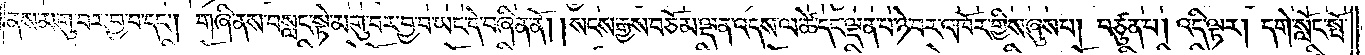ནས་མགུ་བར་བྱ་བ་དང༌། གཞི་ནས་བསླང་སྟེ་མགུ་བར་བྱ་བ་ཡང་དེ་བཞིན་ནོ། །སངས་རྒྱས་བཅོམ་ལྡན་འདས་ལ་ཚེ་དང་ལྡན་པ་ཉེ་བར་འཁོར་གྱིས་ཞུས་པ། བཙུན་པ། འདི་ལྟར། དགེ་སློང་སྤོ་
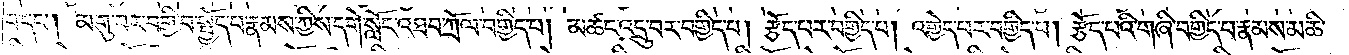བ་དང༌། མགུ་བར་བགྱི་བ་སྤྱོད་པ་རྣམས་ཀྱིས་དགེ་སློང་འཐབ་ཀྲོལ་བགྱིད་པ། མཚང་འདྲུ་བར་བགྱིད་པ། རྩོད་པར་བགྱིད་པ། འགྱེད་པར་བགྱིད་པ། རྩོད་པའི་གཞི་བགྱིད་པ་རྣམས་མཆི་
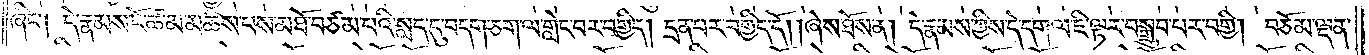ཞིང༌། དེ་རྣམས་ངོ་ཚ་མ་མཆིས་པས་མཐོ་བཙམ་པའི་སླད་དུ་བདག་ཅག་ལ་གླེང་བར་བགྱིད། དྲན་པར་བགྱིད་དོ། །ཞེས་ཐོས་ན། དེ་རྣམས་ཀྱིས་དེ་དག་ལ་ཇི་ལྟར་བསྒྲུབ་པར་བགྱི། བཅོམ་ལྡན་
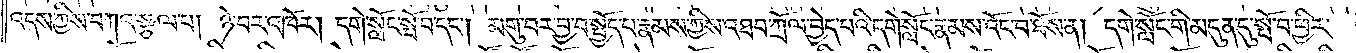འདས་ཀྱིས་བཀའ་སྩལ་པ། ཉེ་བར་འཁོར། དགེ་སློང་སྤོ་བ་དང༌། མགུ་བར་བྱ་བ་སྤྱོད་པ་རྣམས་ཀྱིས་འཐབ་ཀྲོལ་བྱེད་པའི་དགེ་སློང་རྣམས་འོང་བ་ཐོས་ན། དགེ་སློང་གི་མདུན་དུ་སྤོ་བ་ཕྱིར་
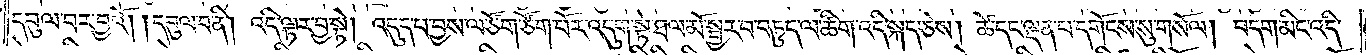དབུལ་བར་བྱའོ། །དབུལ་བ་ནི། འདི་ལྟར་བྱ་སྟེ། འདུད་པ་བྱས་ལ་ཙོག་ཙོག་པོར་འདུག་སྟེ་ཐལ་མོ་སྦྱར་བ་བཏུད་ལ་ཚིག་འདི་སྐད་ཅེས། ཚེ་དང་ལྡན་པ་དགོངས་སུ་གསོལ། བདག་མིང་འདི་
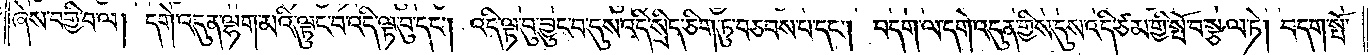ཞེས་བགྱི་བ་ལ། དགེ་འདུན་ལྷག་མའི་ལྟུང་བ་འདི་ལྟ་བུ་དང༌། འདི་ལྟ་བུ་བྱུང་བ་དུས་འདི་སྲིད་ཅིག་ཏུ་བཅབས་པ་དང༌། བདག་ལ་དགེ་འདུན་གྱིས་འདུས་འདི་ཙམ་གྱི་སྤོ་བ་སྩལ་ཏེ། བདག་སྤོ་
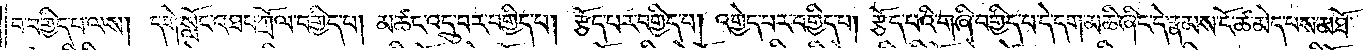བ་བགྱིད་པ་ལས། དགེ་སློང་འཐབ་ཀྲོལ་བགྱིད་པ། མཚང་འདྲུ་བར་བགྱིད་པ། རྩོད་པར་བགྱིད་པ། འགྱེད་པར་བགྱིད་པ། རྩོད་པའི་གཞི་བགྱིད་པ་དེ་དག་མཆི་ཞིང་དེ་རྣམས་ངོ་ཚ་མེད་པས་མཐོ་
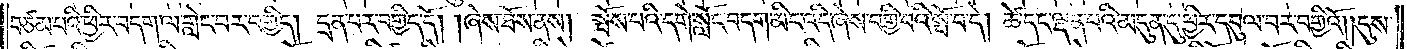བཙམ་པའི་ཕྱིར་བདག་ལ་གླེང་བར་བགྱིད། དྲན་པར་བགྱིད་དོ། །ཞེས་ཐོས་ནས། སྤོས་པའི་དགེ་སློང་བདག་མིང་འདི་ཞེས་བགྱི་བའི་སྤོ་བ་དེ། ཚེ་དང་ལྡན་པའི་མདུན་དུ་ཕྱིར་དབུལ་བར་བགྱིའོ། །དུས་
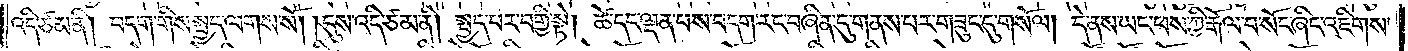འདི་ཙམ་ནི། བདག་གིས་སྤྱད་ལགས་སོ། །དུས་འདི་ཙམ་ནི། སྤྱད་པར་བགྱི་སྟེ། ཚེ་དང་ལྡན་པས་བདག་རང་བཞིན་དུ་གནས་པར་གཟུང་དུ་གསོལ། དེ་ནས་ཡང་ཕས་ཀྱི་རྒོལ་བ་སོང་ཞིང་འཇིགས་
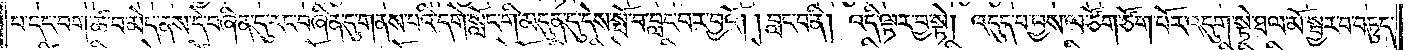པ་དང་བག་ཚ་བ་མེད་ནས་དེ་བཞིན་དུ་རང་བཞིན་དུ་གནས་པའི་དགེ་སློང་གི་མདུན་དུ་དེས་སྤོ་བ་བླང་བར་བྱའོ། །བླང་བ་ནི། འདི་ལྟར་བྱ་སྟེ། འདུད་པ་བྱས་ལ་ཙོག་ཙོག་པོར་འདུག་སྟེ་ཐལ་མོ་སྦྱར་བ་བཏུད་
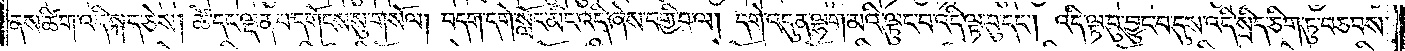ནས་ཚིག་འདི་སྐད་ཅེས། ཚེ་དང་ལྡན་པ་དགོངས་སུ་གསོལ། བདག་དགེ་སློང་མིང་འདི་ཞེས་བགྱི་བ་ལ། དགེ་འདུན་ལྷག་མའི་ལྟུང་བ་འདི་ལྟ་བུ་དང༌། འདི་ལྟ་བུ་བྱུང་བ་དུས་འདི་སྲིད་ཅིག་ཏུ་བཅབས་
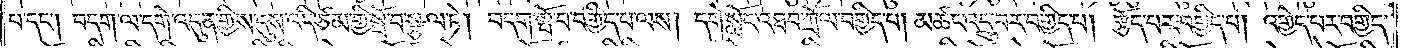པ་དང༌། བདག་ལ་དགེ་འདུན་གྱིས་དུས་འདི་ཙམ་གྱི་སྤོ་བ་སྩལ་ཏེ། བདག་སྤོ་བ་བགྱིད་པ་ལས། དགེ་སློང་འཐབ་ཀྲོལ་བགྱིད་པ། མཚང་འདྲུ་བར་བགྱིད་པ། རྩོད་པར་བགྱིད་པ། འགྱེད་པར་བགྱིད་
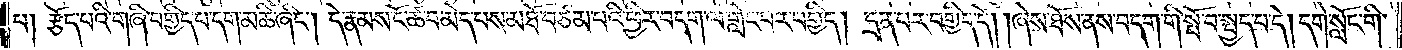པ། རྩོད་པའི་གཞི་བགྱིད་པ་དག་མཆི་ཞིང༌། དེ་རྣམས་ངོ་ཚ་བ་མེད་པས་མཐོ་བ་ཙམ་པའི་ཕྱིར་བདག་ལ་གླེང་པར་བགྱིད། དྲན་པར་བགྱིད་དོ། །ཞེས་ཐོས་ནས་བདག་གི་སྤོ་བ་སྤྱད་པ་དེ། དགེ་སློང་གི།
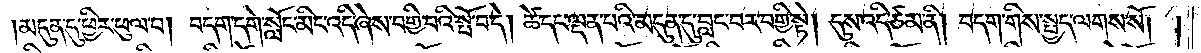མདུན་དུ་ཕྱིར་ཕུལ་བ། བདག་དགེ་སློང་མིང་འདི་ཞེས་བགྱི་བའི་སྤོ་བ་དེ། ཚེ་དང་ལྡན་པའི་མདུན་དུ་བླང་བར་བགྱི་སྟེ། དུས་འདི་ཙམ་ནི། བདག་གིས་སྤྱད་ལགས་སོ། །
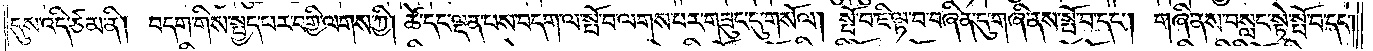དུས་འདི་ཙམ་ནི། བདག་གིས་སྤྱད་པར་བགྱི་ལགས་ཀྱི། ཚེ་དང་ལྡན་པས་བདག་ལ་སྤོ་བ་ལགས་པར་གཟུང་དུ་གསོལ། །སྤོ་བ་ཇི་ལྟ་བ་བཞིན་དུ་གཞི་ནས་སྤོ་བ་དང༌། གཞི་ནས་བསླང་སྟེ་སྤོ་བ་དང༌།
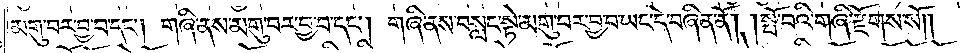མགུ་བར་བྱ་བ་དང༌། གཞི་ནས་མགུ་བར་བྱ་བ་དང༌། གཞི་ནས་བསླང་སྟེ་མགུ་བར་བྱ་བ་ཡང་དེ་བཞིན་ནོ། །སྤོ་བའི་གཞི་རྫོགས་སོ༎
